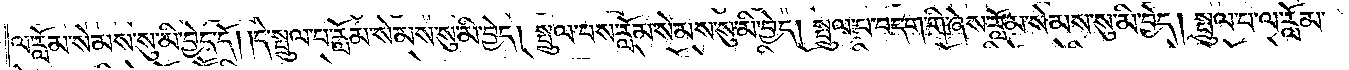ལ་རློམ་སེམས་སུ་མི་བྱེད་དོ། །དེ་སྤྲུལ་པ་རློམ་སེམས་སུ་མི་བྱེད། སྤྲུལ་པས་རློམ་སེམས་སུ་མི་བྱེད། སྤྲུལ་པ་བདག་གི་ཞེས་རློམ་སེམས་སུ་མི་བྱེད། སྤྲུལ་པ་ལ་རློམ་
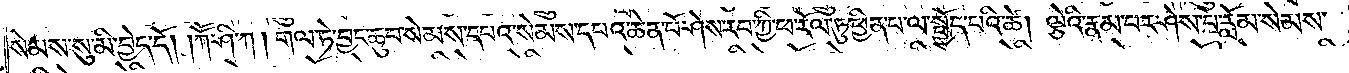སེམས་སུ་མི་བྱེད་དོ། །ཀཽ་ཤི་ཀ། གལ་ཏེ་བྱང་ཆུབ་སེམས་དཔའ་སེམས་དཔའ་ཆེན་པོ་ཤེས་རབ་ཀྱི་ཕ་རོལ་ཏུ་ཕྱིན་པ་ལ་སྤྱོད་པའི་ཚེ། ལྕེའི་རྣམ་པར་ཤེས་པ་རློམ་སེམས་
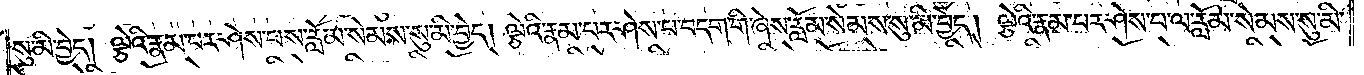སུ་མི་བྱེད། ལྕེའི་རྣམ་པར་ཤེས་པས་རློམ་སེམས་སུ་མི་བྱེད། ལྕེའི་རྣམ་པར་ཤེས་པ་བདག་གི་ཞེས་རློམ་སེམས་སུ་མི་བྱེད། ལྕེའི་རྣམ་པར་ཤེས་པ་ལ་རློམ་སེམས་སུ་མི་
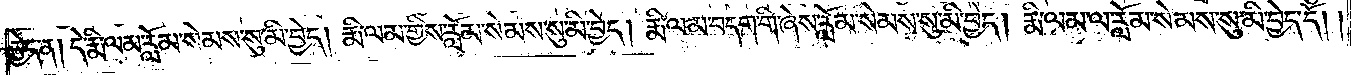བྱེད་ན། དེ་རྨི་ལམ་རློམ་སེམས་སུ་མི་བྱེད། རྨི་ལམ་གྱིས་རློམ་སེམས་སུ་མི་བྱེད། རྨི་ལམ་བདག་གི་ཞེས་རློམ་སེམས་སུ་མི་བྱེད། རྨི་ལམ་ལ་རློམ་སེམས་སུ་མི་བྱེད་དོ། །
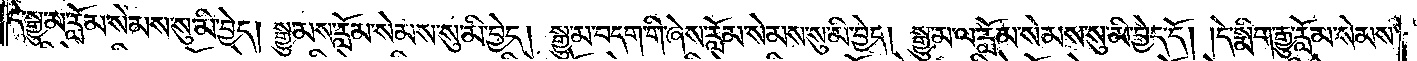དེ་སྒྱུ་མ་རློམ་སེམས་སུ་མི་བྱེད། སྒྱུ་མས་རློམ་སེམས་སུ་མི་བྱེད། སྒྱུ་མ་བདག་གི་ཞེས་རློམ་སེམས་སུ་མི་བྱེད། སྒྱུ་མ་ལ་རློམ་སེམས་སུ་མི་བྱེད་དོ། །དེ་སྨིག་རྒྱུ་རློམ་སེམས་
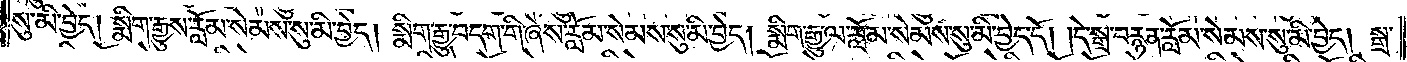སུ་མི་བྱེད། སྨིག་རྒྱུས་རློམ་སེམས་སུ་མི་བྱེད། སྨིག་རྒྱུ་བདག་གི་ཞེས་རློམ་སེམས་སུ་མི་བྱེད། སྨིག་རྒྱུ་ལ་རློམ་སེམས་སུ་མི་བྱེད་དོ། །དེ་སྒྲ་བརྙན་རློམ་སེམས་སུ་མི་བྱེད། སྒྲ་
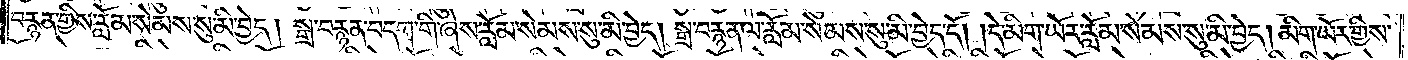བརྙན་གྱིས་རློམ་སེམས་སུ་མི་བྱེད། སྒྲ་བརྙན་བདག་གི་ཞེས་རློམ་སེམས་སུ་མི་བྱེད། སྒྲ་བརྙན་ལ་རློམ་སེམས་སུ་མི་བྱེད་དོ། །དེ་མིག་ཡོར་རློམ་སེམས་སུ་མི་བྱེད། མིག་ཡོར་གྱིས་
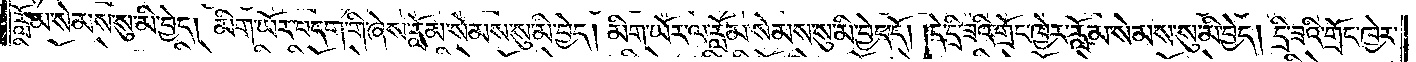རློམ་སེམས་སུ་མི་བྱེད། མིག་ཡོར་བདག་གི་ཞེས་རློམ་སེམས་སུ་མི་བྱེད། མིག་ཡོར་ལ་རློམ་སེམས་སུ་མི་བྱེད་དོ། །དེ་དྲི་ཟའི་གྲོང་ཁྱེར་རློམ་སེམས་སུ་མི་བྱེད། དྲི་ཟའི་གྲོང་ཁྱེར་
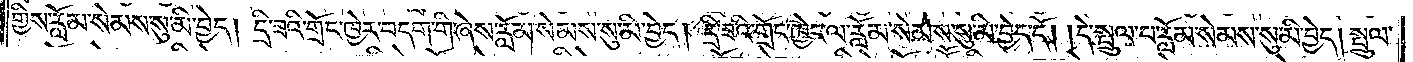གྱིས་རློམ་སེམས་སུ་མི་བྱེད། དྲི་ཟའི་གྲོང་ཁྱེར་བདག་གི་ཞེས་རློམ་སེམས་སུ་མི་བྱེད། དྲི་ཟའི་གྲོང་ཁྱེར་ལ་རློམ་སེམས་སུ་མི་བྱེད་དོ། །དེ་སྤྲུལ་པ་རློམ་སེམས་སུ་མི་བྱེད། སྤྲུལ་
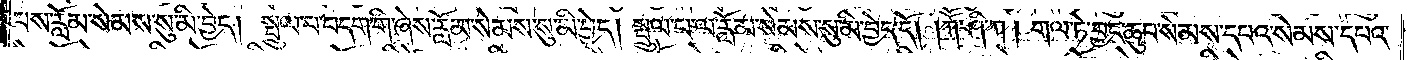པས་རློམ་སེམས་སུ་མི་བྱེད། སྤྲུལ་པ་བདག་གི་ཞེས་རློམ་སེམས་སུ་མི་བྱེད། སྤྲུལ་པ་ལ་རློམ་སེམས་སུ་མི་བྱེད་དོ། །ཀཽ་ཤི་ཀ། གལ་ཏེ་བྱང་ཆུབ་སེམས་དཔའ་སེམས་དཔའ་
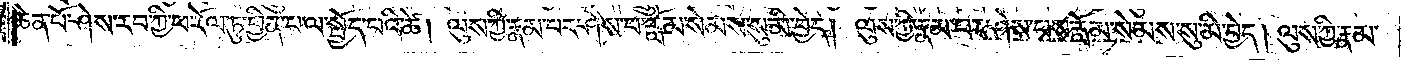ཆེན་པོ་ཤེས་རབ་ཀྱི་ཕ་རོལ་ཏུ་ཕྱིན་པ་ལ་སྤྱོད་པའི་ཚེ། ལུས་ཀྱི་རྣམ་པར་ཤེས་པ་རློམ་སེམས་སུ་མི་བྱེད། ལུས་ཀྱི་རྣམ་པར་ཤེས་པས་རློམ་སེམས་སུ་མི་བྱེད། ལུས་ཀྱི་རྣམ་
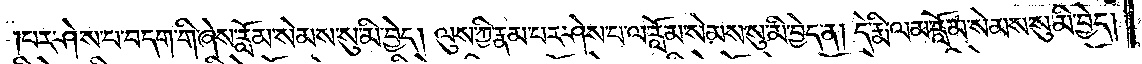པར་ཤེས་པ་བདག་གི་ཞེས་རློམ་སེམས་སུ་མི་བྱེད། ལུས་ཀྱི་རྣམ་པར་ཤེས་པ་ལ་རློམ་སེམས་སུ་མི་བྱེད་ན། དེ་རྨི་ལམ་རློམ་སེམས་སུ་མི་བྱེད།
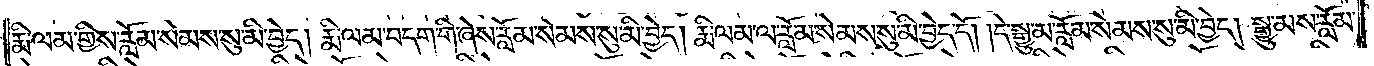རྨི་ལམ་གྱིས་རློམ་སེམས་སུ་མི་བྱེད། རྨི་ལམ་བདག་གི་ཞེས་རློམ་སེམས་སུ་མི་བྱེད། རྨི་ལམ་ལ་རློམ་སེམས་སུ་མི་བྱེད་དོ། །དེ་སྒྱུ་མ་རློམ་སེམས་སུ་མི་བྱེད། སྒྱུ་མས་རློམ་
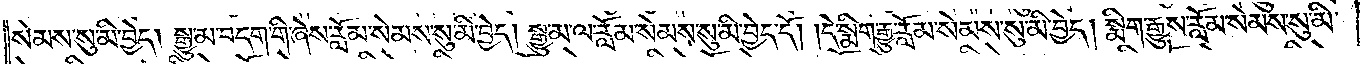སེམས་སུ་མི་བྱེད། སྒྱུ་མ་བདག་གི་ཞེས་རློམ་སེམས་སུ་མི་བྱེད། སྒྱུ་མ་ལ་རློམ་སེམས་སུ་མི་བྱེད་དོ། །དེ་སྨིག་རྒྱུ་རློམ་སེམས་སུ་མི་བྱེད། སྨིག་རྒྱུས་རློམ་སེམས་སུ་མི་
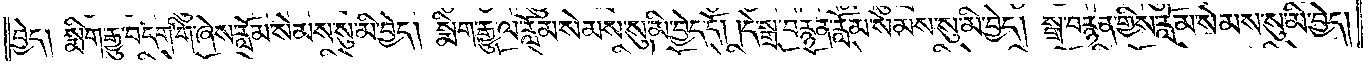བྱེད། སྨིག་རྒྱུ་བདག་གི་ཞེས་རློམ་སེམས་སུ་མི་བྱེད། སྨིག་རྒྱུ་ལ་རློམ་སེམས་སུ་མི་བྱེད་དོ། །དེ་སྒྲ་བརྙན་རློམ་སེམས་སུ་མི་བྱེད། སྒྲ་བརྙན་གྱིས་རློམ་སེམས་སུ་མི་བྱེད།
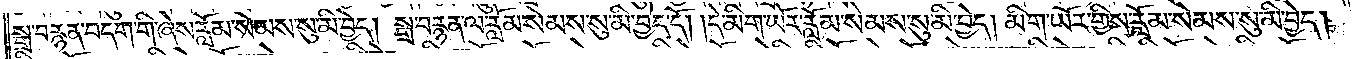སྒྲ་བརྙན་བདག་གི་ཞེས་རློམ་སེམས་སུ་མི་བྱེད། སྒྲ་བརྙན་ལ་རློམ་སེམས་སུ་མི་བྱེད་དོ། །དེ་མིག་ཡོར་རློམ་སེམས་སུ་མི་བྱེད། མིག་ཡོར་གྱིས་རློམ་སེམས་སུ་མི་བྱེད།
